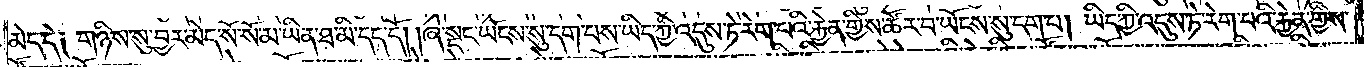མེད་དེ༑ གཉིས་སུ་བྱར་མེད་སོ་སོ་མ་ཡིན་ཐ་མི་དད་དོ། །ཞེ་སྡང་ཡོངས་སུ་དག་པས་ཡིད་ཀྱི་འདུས་ཏེ་རེག་པའི་རྐྱེན་གྱིས་ཚོར་བ་ཡོངས་སུ་དག་པ། ཡིད་ཀྱི་འདུས་ཏེ་རེག་པའི་རྐྱེན་གྱིས་
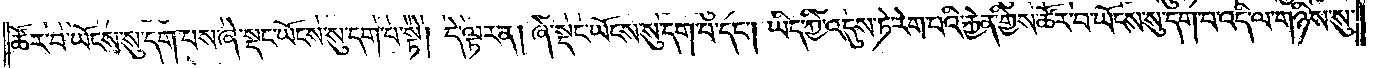ཚོར་བ་ཡོངས་སུ་དག་པས་ཞེ་སྡང་ཡོངས་སུ་དག་པ་སྟེ། དེ་ལྟར་ན། ཞེ་སྡང་ཡོངས་སུ་དག་པ་དང༌། ཡིད་ཀྱི་འདུས་ཏེ་རེག་པའི་རྐྱེན་གྱིས་ཚོར་བ་ཡོངས་སུ་དག་པ་འདི་ལ་གཉིས་སུ་
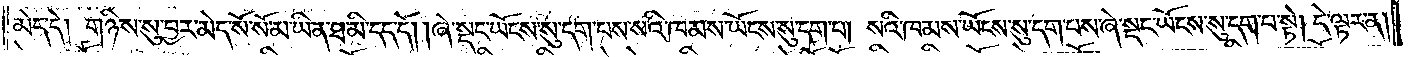མེད་དེ། གཉིས་སུ་བྱར་མེད་སོ་སོ་མ་ཡིན་ཐ་མི་དད་དོ། །ཞེ་སྡང་ཡོངས་སུ་དག་པས་སའི་ཁམས་ཡོངས་སུ་དག་པ། སའི་ཁམས་ཡོངས་སུ་དག་པས་ཞེ་སྡང་ཡོངས་སུ་དག་པ་སྟེ། དེ་ལྟར་ན།
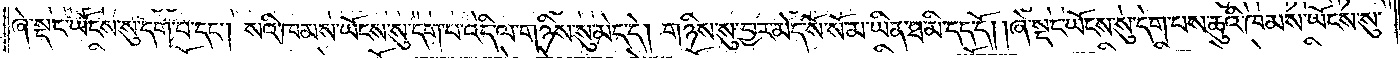ཞེ་སྡང་ཡོངས་སུ་དག་པ་དང༌། སའི་ཁམས་ཡོངས་སུ་དག་པ་འདི་ལ་གཉིས་སུ་མེད་དེ། གཉིས་སུ་བྱར་མེད་སོ་སོ་མ་ཡིན་ཐ་མི་དད་དོ། །ཞེ་སྡང་ཡོངས་སུ་དག་པས་ཆུའི་ཁམས་ཡོངས་སུ་
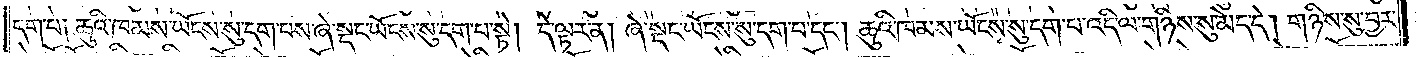དག་པ༑ ཆུའི་ཁམས་ཡོངས་སུ་དག་པས་ཞེ་སྡང་ཡོངས་སུ་དག་པ་སྟེ། དེ་ལྟར་ན། ཞེ་སྡང་ཡོངས་སུ་དག་པ་དང༌། ཆུའི་ཁམས་ཡོངས་སུ་དག་པ་འདི་ལ་གཉིས་སུ་མེད་དེ། གཉིས་སུ་བྱར་
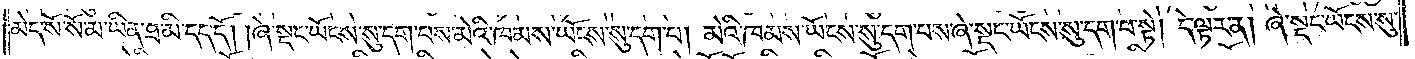མེད་སོ་སོ་མ་ཡིན་ཐ་མི་དད་དོ། །ཞེ་སྡང་ཡོངས་སུ་དག་པས་མེའི་ཁམས་ཡོངས་སུ་དག་པ། མེའི་ཁམས་ཡོངས་སུ་དག་པས་ཞེ་སྡང་ཡོངས་སུ་དག་པ་སྟེ། དེ་ལྟར་ན། ཞེ་སྡང་ཡོངས་སུ་
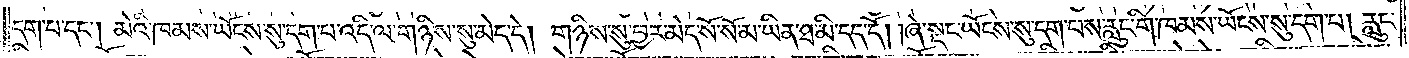དག་པ་དང༌། མེའི་ཁམས་ཡོངས་སུ་དག་པ་འདི་ལ་གཉིས་སུ་མེད་དེ། གཉིས་སུ་བྱར་མེད་སོ་སོ་མ་ཡིན་ཐ་མི་དད་དོ། །ཞེ་སྡང་ཡོངས་སུ་དག་པས་རླུང་གི་ཁམས་ཡོངས་སུ་དག་པ། རླུང་
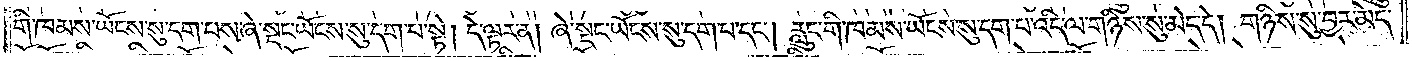གི་ཁམས་ཡོངས་སུ་དག་པས་ཞེ་སྡང་ཡོངས་སུ་དག་པ་སྟེ། དེ་ལྟར་ན། ཞེ་སྡང་ཡོངས་སུ་དག་པ་དང༌། རླུང་གི་ཁམས་ཡོངས་སུ་དག་པ་འདི་ལ་གཉིས་སུ་མེད་དེ། གཉིས་སུ་བྱར་མེད་
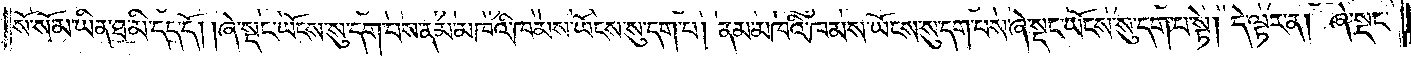སོ་སོ་མ་ཡིན་ཐ་མི་དད་དོ། །ཞེ་སྡང་ཡོངས་སུ་དག་པས་ནམ་མཁའི་ཁམས་ཡོངས་སུ་དག་པ། ནམ་མཁའི་ཁམས་ཡོངས་སུ་དག་པས་ཞེ་སྡང་ཡོངས་སུ་དག་པ་སྟེ། དེ་ལྟར་ན། ཞེ་སྡང་
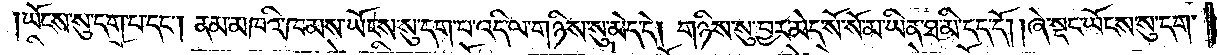ཡོངས་སུ་དག་པ་དང༌། ནམ་མཁའི་ཁམས་ཡོངས་སུ་དག་པ་འདི་ལ་གཉིས་སུ་མེད་དེ། གཉིས་སུ་བྱར་མེད་སོ་སོ་མ་ཡིན་ཐ་མི་དད་དོ། །ཞེ་སྡང་ཡོངས་སུ་དག་
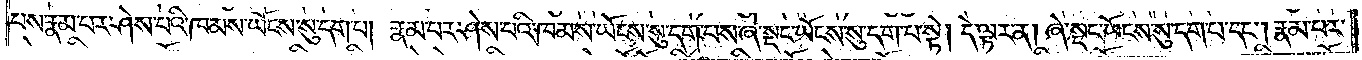པས་རྣམ་པར་ཤེས་པའི་ཁམས་ཡོངས་སུ་དག་པ། རྣམ་པར་ཤེས་པའི་ཁམས་ཡོངས་སུ་དག་པས་ཞེ་སྡང་ཡོངས་སུ་དག་པ་སྟེ། དེ་ལྟར་ན། ཞེ་སྡང་ཡོངས་སུ་དག་པ་དང༌། རྣམ་པར་
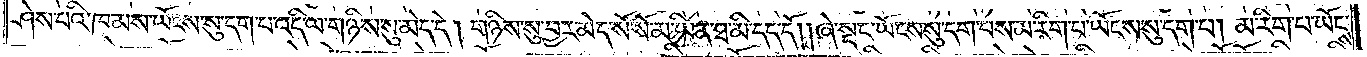ཤེས་པའི་ཁམས་ཡོངས་སུ་དག་པ་འདི་ལ་གཉིས་སུ་མེད་དེ། གཉིས་སུ་བྱར་མེད་སོ་སོ་མ་ཡིན་ཐ་མི་དད་དོ། །ཞེ་སྡང་ཡོངས་སུ་དག་པས་མ་རིག་པ་ཡོངས་སུ་དག་པ། མ་རིག་པ་ཡོངས་
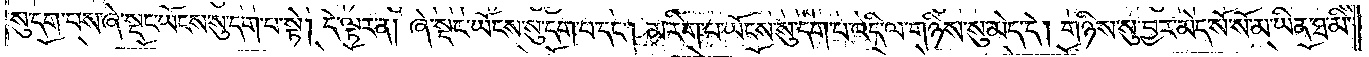སུ་དག་པས་ཞེ་སྡང་ཡོངས་སུ་དག་པ་སྟེ། དེ་ལྟར་ན། ཞེ་སྡང་ཡོངས་སུ་དག་པ་དང༌། མ་རིག་པ་ཡོངས་སུ་དག་པ་འདི་ལ་གཉིས་སུ་མེད་དེ། གཉིས་སུ་བྱར་མེད་སོ་སོ་མ་ཡིན་ཐ་མི་
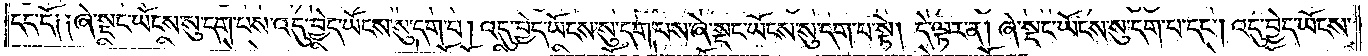དད་དོ༑ ༑ཞེ་སྡང་ཡོངས་སུ་དག་པས་འདུ་བྱེད་ཡོངས་སུ་དག་པ། འདུ་བྱེད་ཡོངས་སུ་དག་པས་ཞེ་སྡང་ཡོངས་སུ་དག་པ་སྟེ། དེ་ལྟར་ན། ཞེ་སྡང་ཡོངས་སུ་དག་པ་དང༌། འདུ་བྱེད་ཡོངས་
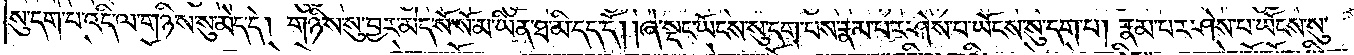སུ་དག་པ་འདི་ལ་གཉིས་སུ་མེད་དེ། གཉིས་སུ་བྱར་མེད་སོ་སོ་མ་ཡིན་ཐ་མི་དད་དོ། །ཞེ་སྡང་ཡོངས་སུ་དག་པས་རྣམ་པར་ཤེས་པ་ཡོངས་སུ་དག་པ། རྣམ་པར་ཤེས་པ་ཡོངས་སུ་
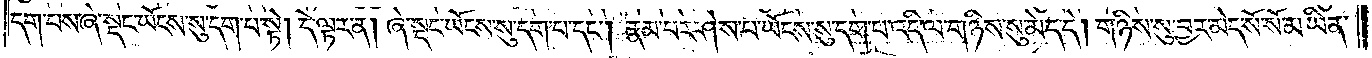དག་པས་ཞེ་སྡང་ཡོངས་སུ་དག་པ་སྟེ། དེ་ལྟར་ན། ཞེ་སྡང་ཡོངས་སུ་དག་པ་དང༌། རྣམ་པར་ཤེས་པ་ཡོངས་སུ་དག་པ་འདི་ལ་གཉིས་སུ་མེད་དེ། གཉིས་སུ་བྱར་མེད་སོ་སོ་མ་ཡིན་
